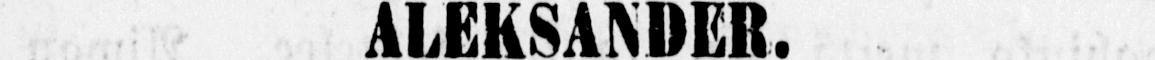ALEKSANDER.
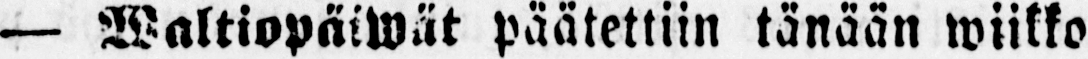— Waltiopäiwät päätettiin tänään wiikko
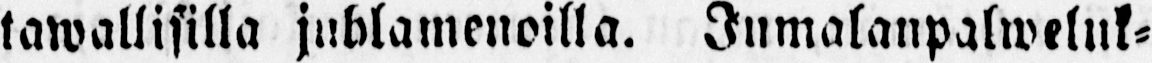tawallisilla juhlamenoilla. Jumalanpalweluk-
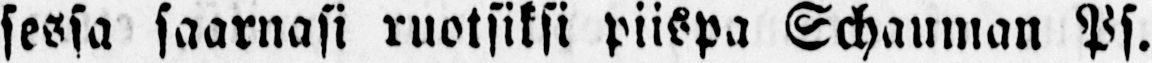sessa saarnasi ruotsiksi piispa Schauman Ps.
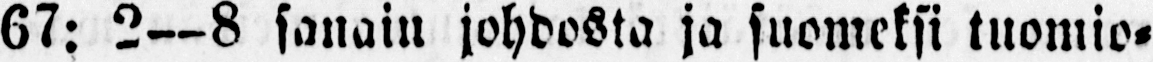67: 2—8 sanain johdosta ja suomeksi tuomio-
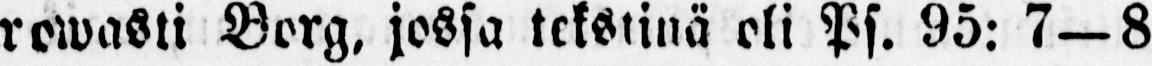rowasti Borg, jossa tekstinä oli Ps. 95: 7—8
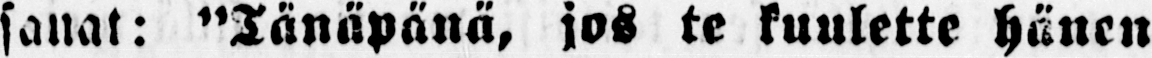sanat: ”Tänäpänä, jos te kuulette hänen
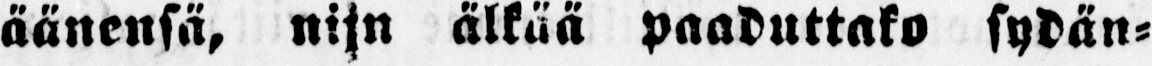äänensä, niin älkää paaduttako sydän-
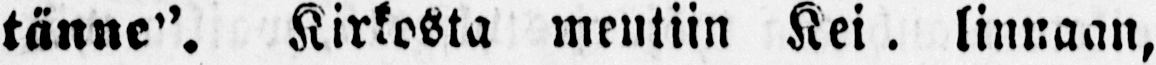tänne”. Kirkosta mentiin Kei. linnaan,
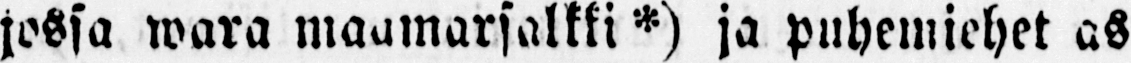jossa wara maamarsalkki*) ja puhemiehet as-
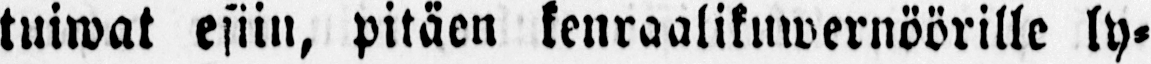tuiwat esiin, pitäen kenraalikuwernöörille ly-
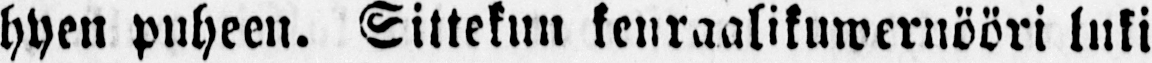hyen puheen. Sittekun kenraalikuwernööri luki
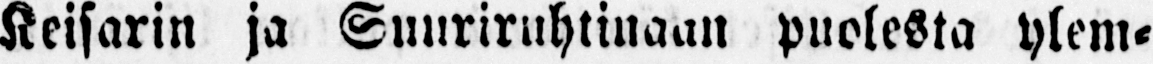Keisarin ja Suuriruhtinaan puolesta ylem-
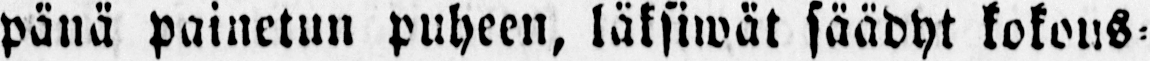pänä painetun puheen, läksiwät säädyt kokous-
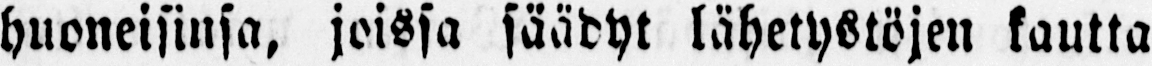huoneisinsa, joissa säädyt lähetystöjen kautta
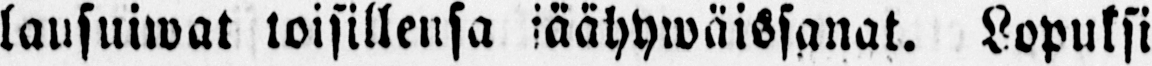lausuiwat toisillensa jäähywäissanat. Lopuksi
